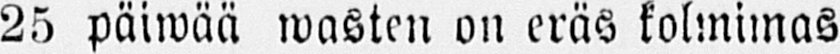25 päiwää wasten on eräs kolmimas-
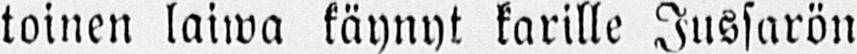toinen laiwa käynyt karille Jussarön
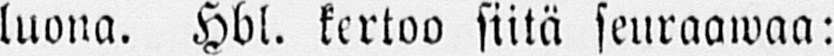luona. Hbl. kertoo siitä seuraawaa:
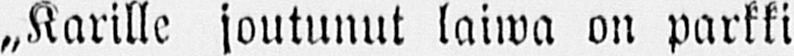„Karille joutunut laiwa on parkki
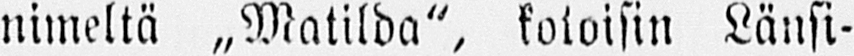nimeltä „Matilda", kotoisin Länsi-
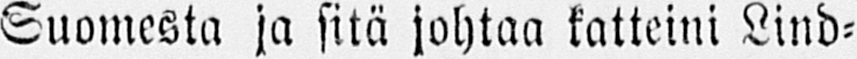Suomesta ja sitä johtaa katteini Lind-
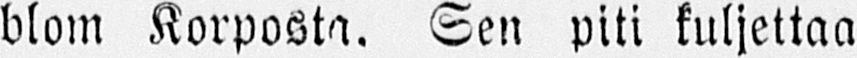blom Korposta. Sen piti kuljettaa
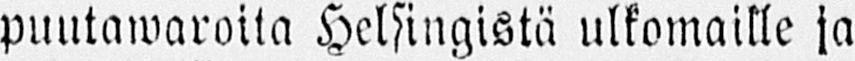puutawaroita Helsingistä ulkomaille ja
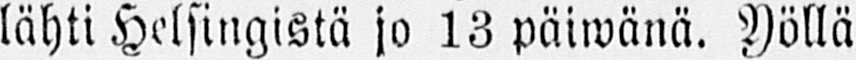lähti Helsingistä jo 13 päiwänä. Yöllä
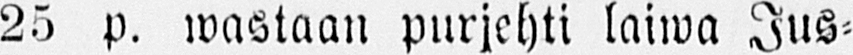25 p. wastaan purjehti laiwa Jus-
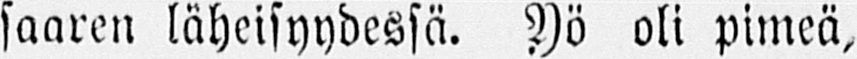saaren läheisyydessä. Yö oli pimeä,
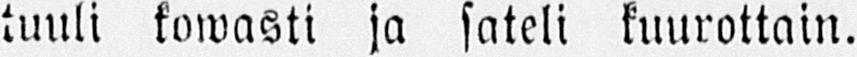tuuli kowasti ja sateli kuurottain.
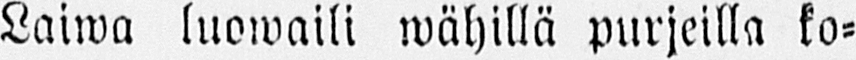Laiwa luowaili wähillä purjeilla ko-
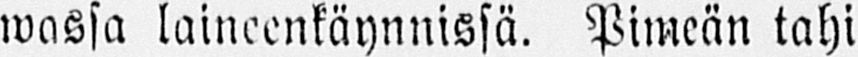wassa laineenkäynnissä. Pimeän tahi
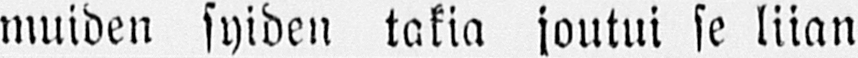muiden syiden takia joutui se liian
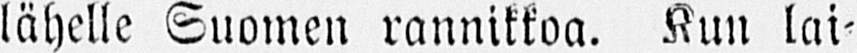lähelle Suomen rannikkoa. Kun lai-
